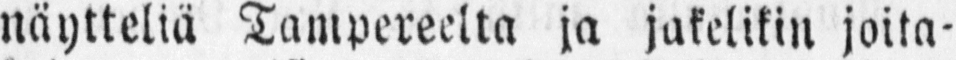näytteliä Tampereelta ja jakelikin joita-
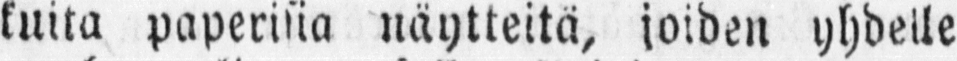kuita paperina näytteitä, joiden yhdelle
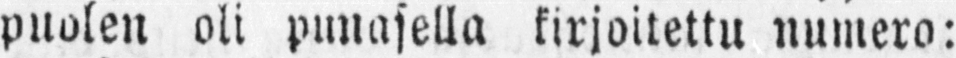puolen oli punasella kirjoitettu numero:
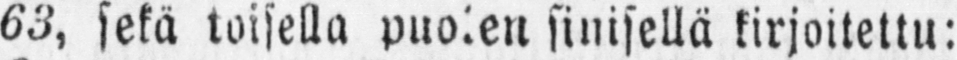63, sekä toisella puolen sinisellä kirjoitettu:
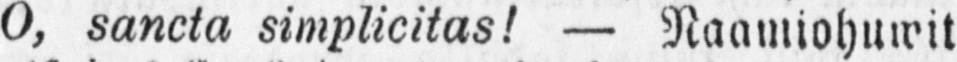O, sancta — Naamiohuwit
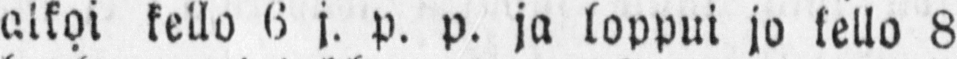alkoi kello 6 j. p. p. ja loppui jo kello 8
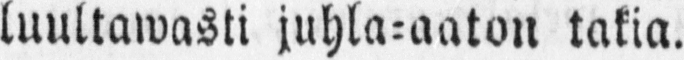luultawasti juhla-aaton takia.
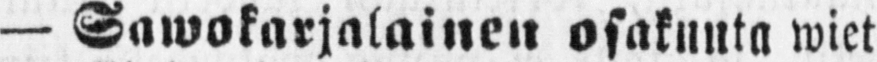— Sawokarjalainen osakunta wiet-
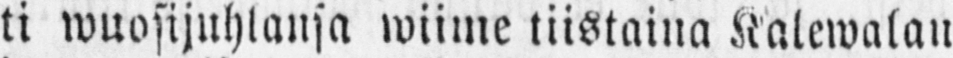ti wuosijuhlansa wime tiistaina Kalewalan
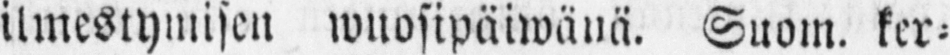ilmestymisen wuosipäiwänä. Suom. ker-
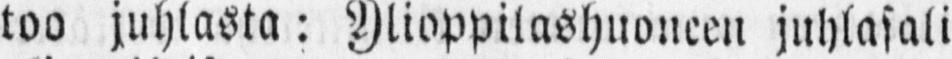too juhlasta: Ylioppilashuoneen juhlasali
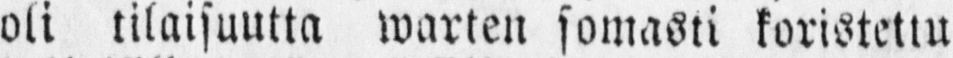oli tilaisuutta warten somasti koristettu
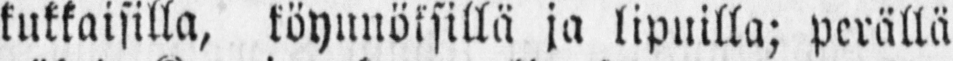kukkaisilla, köynnöksillä ja lipuilla; perällä
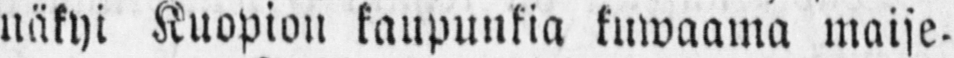näkyi Kuopion kaupunkia kuwaama maise-
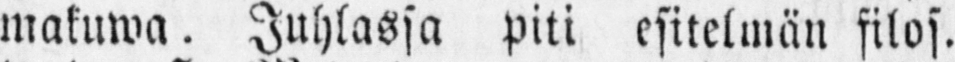makuwa. Juhlassa piti esitelmän filos.
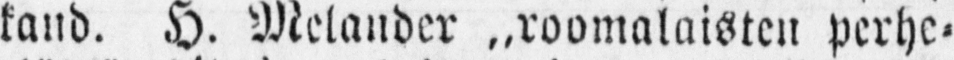kand. H. Melander ˶roomalaisten perhe-
